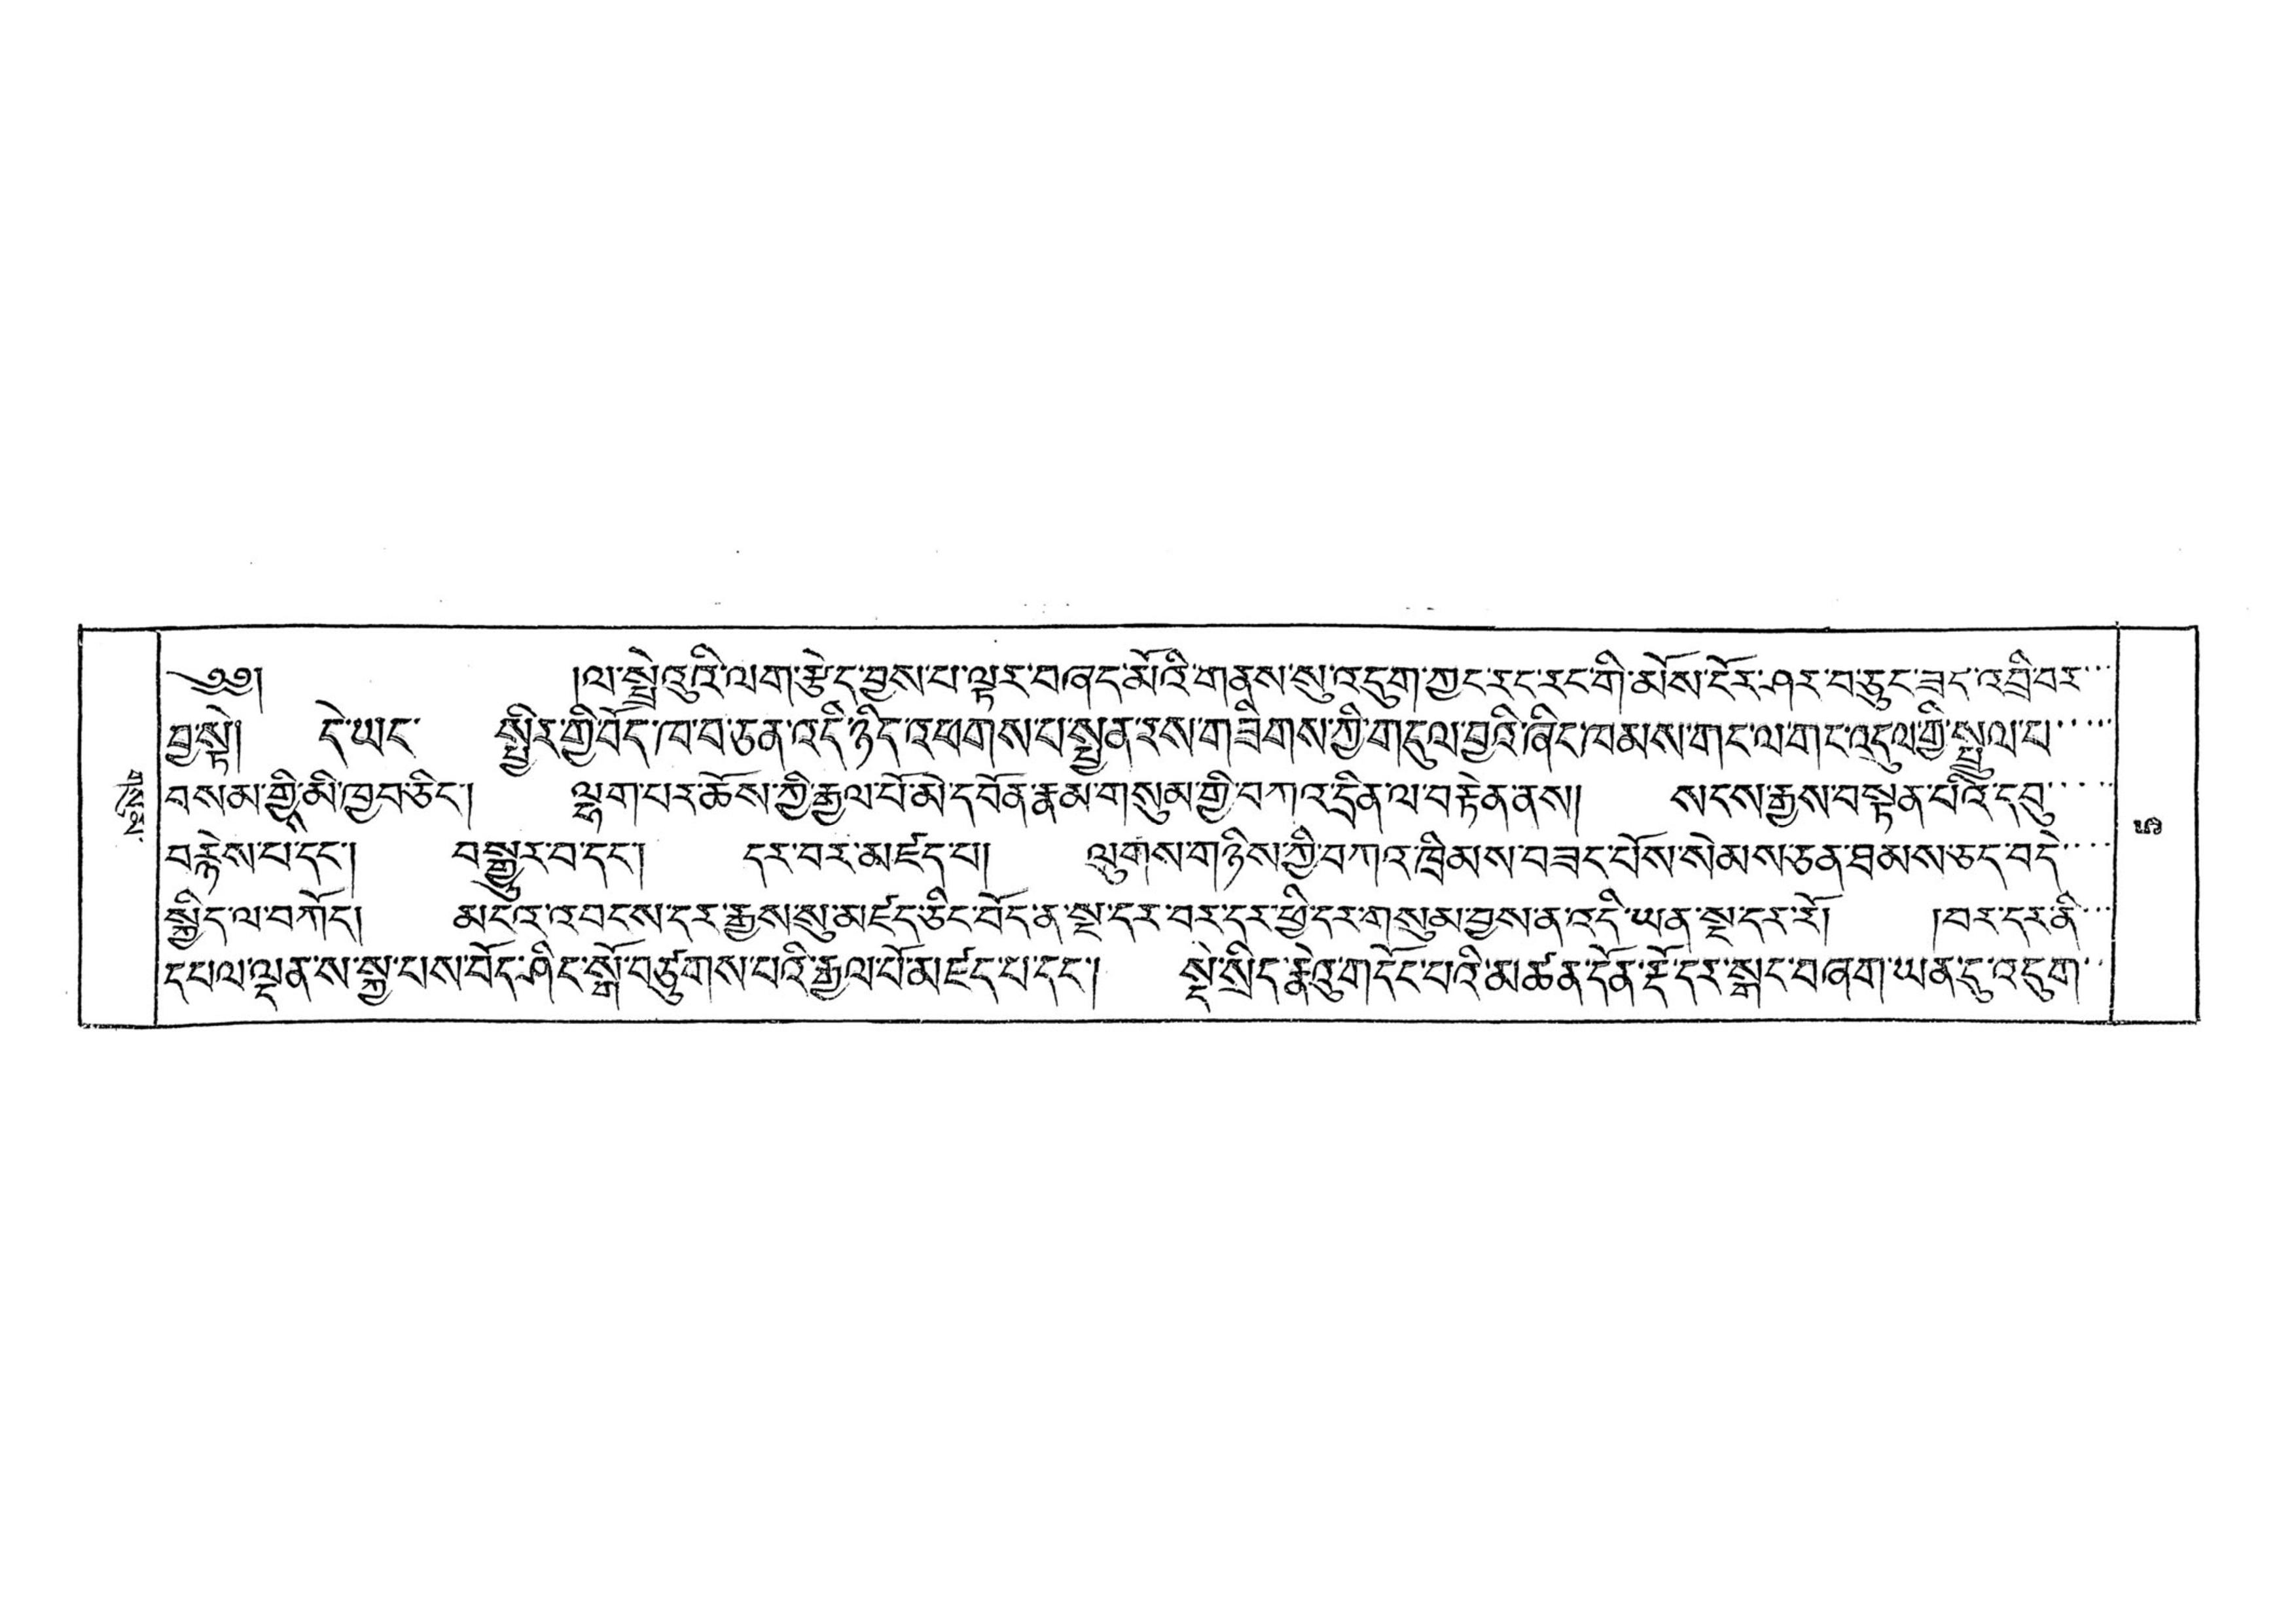གསུམ་
༄༅། །ལ་སྤྲེའུའི་ལག་རྩེད་བྱས་པ་ལྟར་བཞད་མོའི་གནས་སུ་འདུག་ཀྱང་རང་རང་གི་མོས་ངོར་ཤར་བ་ཅུང་ཟད་འབྲི་བར་་་
བྱ་སྟེ། དེ་ཡང་ སྤྱིར་གྱི་བོད་ཁ་བ་ཅན་འདི་ཉིད་འཕགས་པ་སྤྱན་རས་གཟིགས་ཀྱི་གདུལ་བྱའི་ཞིང་ཁམས་གང་ལ་གང་འདུལ་གྱི་སྤྲུལ་པ་་་་་
བསམ་གྱིས་མི་ཁྱབ་ཅིང་། ལྷག་པར་ཆོས་ཀྱི་རྒྱལ་པོ་མེ་དབོན་རྣམ་གསུམ་གྱི་བཀའ་དྲིན་ལ་བརྟེན་ནས། སངས་རྒྱས་བསྟན་པའི་དབུ་་་་་
བརྙེས་པ་དང་། བསྒྱུར་བ་དང་། དར་བར་མཛད་པ། ལུགས་གཉིས་ཀྱི་བཀའ་ཁྲིམས་བཟང་པོས་སེམས་ཅན་ཐམས་ཅད་བདེ་་་་
སྐྱིད་ལ་བཀོད། མངའ་འབངས་དར་རྒྱས་སུ་མཛད་ཅིང་བོད་ན་སྔ་དར་བར་དར་ཕྱི་དར་གསུམ་བྱས་ན་འདི་ཡན་སྔ་དར་རོ། །བར་དར་ནི་་་
དཔལ་ལྡན་ས་སྐྱ་པས་བོད་ཤིང་སྒོ་བཙུགས་པའི་རྒྱལ་པོ་མཛད་པ་དང་། སྡེ་སྲིད་རྣེའུ་གདོང་པའི་མཚན་དོན་རྡོ་དར་སྒང་བཞག་ཡན་དུ་འདུག་་
